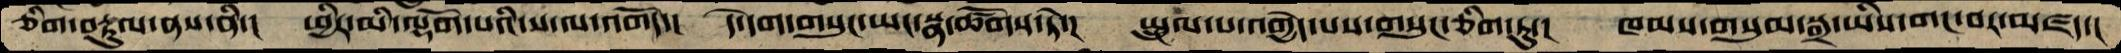ཅིག་བརྟུལ་ནས་ནི་།  ཕྱིར་མི་ལྷོག་པའི་ས་ལ་འགོད་།  དེ་དག་གསུང་ཡང་སྣ་ཚོགས་ཏེ་།  སྤྲུལ་པ་འགྱེད་པས་གསུང་ཅིག་ཏུ་།  ཁམས་གསུམ་སྒྲ་ཡིས་གང་བར་མཛད་།
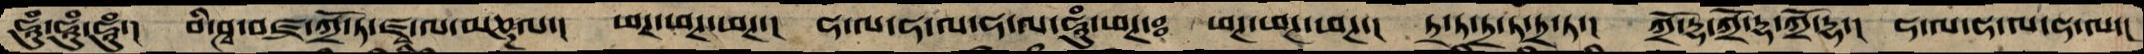ཧཱུཾ་ཧཱུཾ་ཧཱུཾ་།  བི་ཤྭ་བཛྲ་ཀྲོ་ཏ་ཛྭ་ལ་མཎྜལ་།  ཕཊ་ཕཊ་ཕཊ་།  ཧ་ལ་ཧ་ལ་ཧ་ལ་ཧཱུཾ་ཕཊ་ཿ  ཕཊ་ཕཊ་ཕཊ་།  ཏྲ་ཏ་ཏྲ་ཏ་ཏྲ་ཏ་།  ཀྲོ་དྷ་ཀྲོ་དྷ་ཀྲོ་དྷ་།  ཧ་ལ་ཧ་ལ་ཧ་ལ་།
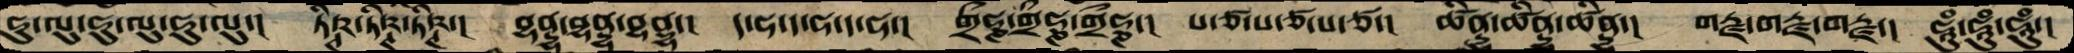ཧུ་ལུ་ཧུ་ལུ་ཧུ་ལུ་།  ཏིཥྚ་ཏིཥྚ་ཏིཥྚ་།  བྷནྡྷ་བྷནྡྷ་བྷནྡྷ་།  ད་ཧ་ད་ཧ་ད་ཧ་། གྲྀཧྞ་གྲྀཧྞ་གྲྀཧྞ་།  པ་ཙ་པ་ཙ་པ་ཙ་།  ཚིནྡྷ་ཚིནྡྷ་ཚིནྡྷ་།  གརྫ་གརྫ་གརྫ་།  ཧཱུཾ་ཧཱུཾ་ཧཱུཾ་།
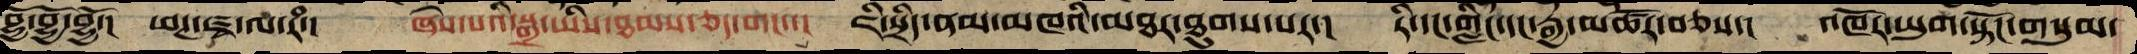བྷྱོ་བྷྱོ་བྷྱོ་།  ཕཊ་ཛྭ་ལ་རཾ་།  ཞེས་པའི་སྒྲ་ཡིས་ཐམས་ཅད་གང་་།  ཇི་སྲིད་ནམ་མཁའི་མཐར་ཐུགས་པར་།  རི་དང་གླིང་དང་རྒྱ་མཚོར་བཅས་།  འཁོར་ཡུག་སྟོང་གསུམ་
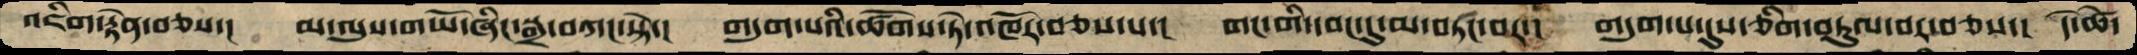འཇིག་རྟེན་བཅས་།   མ་ལུས་གཡོ་ཞིང་སྒྲ་བཀང་སྟེ་།  གདུག་པའི་ཚོགས་ཏེ་འཁོར་བཅས་པ་།  གང་གི་དབང་དུ་མ་བཏང་བར་།  གདུག་པ་དུས་ཅིག་བཏུལ་བར་བཅས་།  དེ་ཚེ་
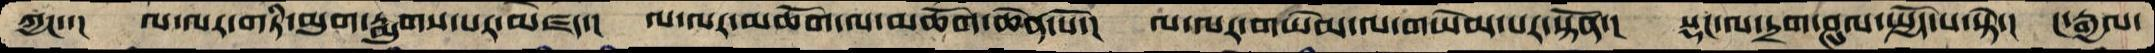ཀྱང་་།  ལ་ལར་གཏི་མུག་རྨུགས་པར་མཛད་།  ལ་ལར་མཆོག་ལ་མཆོག་ཆེན་པོ་།   ལ་ལར་གཡེམ་ལ་གཡེམ་པར་སྟོན་།  སྡང་ལ་དྲག་ཤུལ་སྤྱོད་པ་སྟེ་།  ང་རྒྱལ་
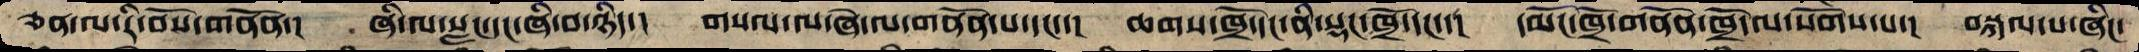ཅན་ལ་རི་་བོས་མནོན་།  ཞི་ལ་སླང་དང་ཞི་བ་ཉིད་།  གསལ་ལ་ཞེ་ལ་གནོན་པ་དང་་།  ཆགས་ཁྲོ་དང་ནི་སྡང་ཁྲོ་དང་་།  དམོང་ཁྲོ་གནོན་ཁྲོ་ལ་སོགས་པ་།  བསྐལ་པ་ཞིང་
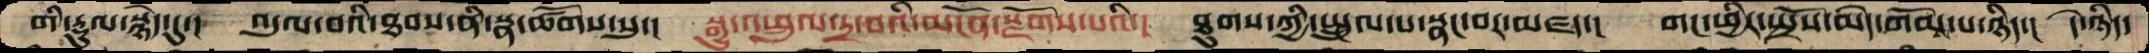གི་རྡུལ་སྙེད་དུ་།  འདུལ་བའི་ཐབས་ནི་སྣ་ཚོགས་སུ་།  སྒྱུ་འཕྲུལ་དྲ་བའི་མངོན་སྫོགས་པའི་།  ཐུགས་ཀྱི་སྤྲུལ་པ་སྣང་བར་མཛད་།  གང་ཕྱིར་སྤྲོས་མེད་གོམས་པ་ཉིད་།  དེ་ཉིད་
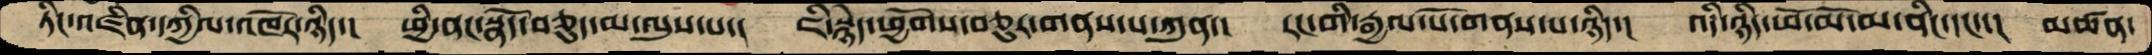ཏིང་འཛིན་དཀྱིལ་འཁོར་ཉིད་།  ཕྱི་ནང་སྣོད་བཅུད་མ་ལུས་པ་།  ཇི་སྙེད་ཕྱོགས་བཅུར་གནས་པ་ཀུན་།  རང་གི་རྒྱལ་པོ་གནས་པ་ཉིད་།  འདི་ཉིད་ཕོ་མོ་མ་ནིང་དང་་།  མཚན་
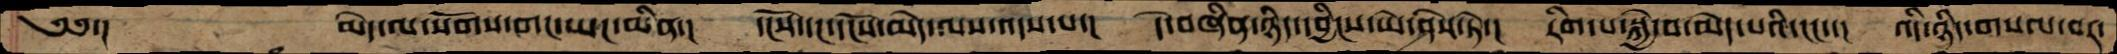༄༅་།               མེད་ལ་སོགས་གང་ཡང་མིན་།  དངོས་དང་དངོས་མེད་ལས་འདས་པ་།   དེ་བཞིན་ཉིད་དབྱིངས་ཡེ་ཤེས་ཏེ་།  རིག་པ་སྐྱེ་བ་མེད་པའི་ངང་་།  འདི་ཉིད་གསལ་བར་
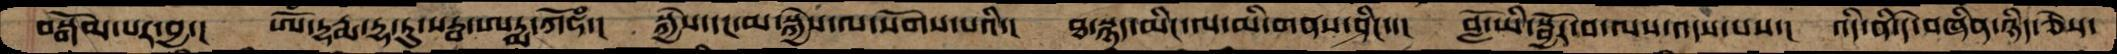བསྒོམ་པར་བྱ་།   ཨོཾ་དྷརྨ་དྷ་ཏུ་སརྦ་ཨཏྨ་ཀོཧཾ་།   སྐྱེས་དང་མ་སྐྱེས་ལ་སོགས་པའི་།  ཐ་སྙད་མིང་ལ་མི་གནས་ཤིང་་།  བློ་ཡི་སྦྱོར་བ་ལས་འདས་པས་།  འདི་ནི་དེ་བཞིན་ཉིད་ཅེས་
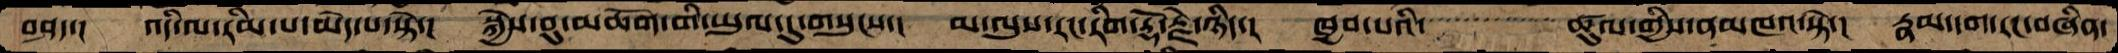བཤད་།   འདི་ལ་རིམ་པ་མེད་པ་སྟེ་།   སྐྱེས་བུ་མཆོག་གི་ཡུལ་དུ་གསུངས་།  མ་ལུས་རང་རིག་རྡོ་རྗེ་ཉིད་།  ཁྱབ་པའི་་་་་་་་་་་་་་་་་་་་ཚུལ་གྱིས་ནམཁའ་སྟེ་།  རྣམ་དག་རང་བཞིན་
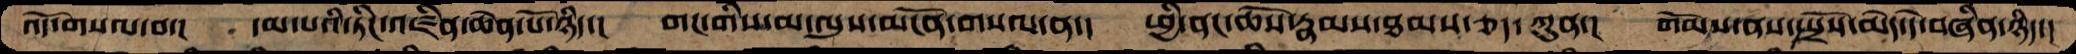འོད་གསལ་བ་།   དམ་པའི་ཏིང་འཛིན་ཆེན་པོ་ཉིད་།  གང་གིས་མ་ལུས་མངོན་གསལ་ན་།  ཕྱི་ནང་ཆོས་རྣམས་ཐམས་ཅད་ཀུན་།  གོམས་ནས་སྤྲོས་མེད་དེ་བཞིན་ཉིད་།
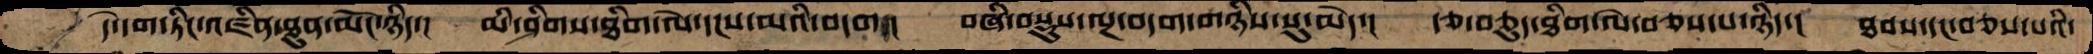དེ་དག་ཏིང་འཛིན་ཐུན་མོང་ཉིད་།  མི་ཤིགས་ཐིག་ལེ་དངས་མའི་བདག་།  བཞི་བསྡུས་ལྔ་བདག་གཉིས་སུ་མེད་།  རྩ་བཅུད་ཐིག་ལེ་བཅས་པ་ཉིད་།  ཐབས་དང་བཅས་པའི་
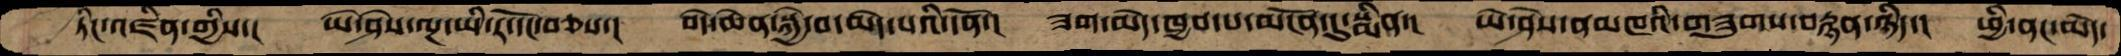ཏིང་འཛིན་གྱིས་།  ཡེ་ཤེས་ལྔ་ཡི་རོ་དང་བཅས་།  བདེ་ཆེན་སྐྱེ་བ་མེད་པའི་དོན་།  ཟག་མེད་ཁྱབ་པ་མངོན་དུ་སྨིན་།  ཡེ་ཤེས་ནམཁའི་གཟུགས་བརྙན་ཉིད་།  ཕྱི་ནང་མེད་
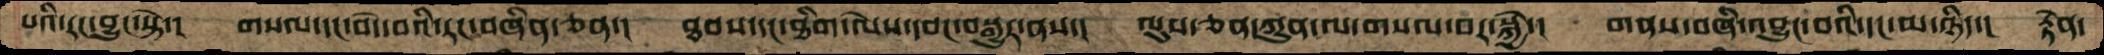པའི་རང་བྱུང་སྟེ་།  གསལ་དང་བདེ་བའི་རང་བཞིན་ཅན་།   ཐབས་དང་ཐིག་ལེས་དབང་བསྒྱུར་ནས་།  ལུས་ཅན་ཀུན་ལ་གསལ་བར་སྐྱེ་།  གནས་བཞི་འབྱུང་བའི་དང་མ་ཉིད་།  རྟེན་
